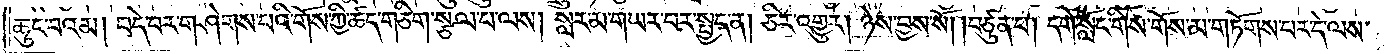ཆུང་བའམ། བདེ་བར་གཤེགས་པའི་གོས་ཀྱི་ཚད་གཅིག་སྩལ་པ་ལས། སླར་མ་གཡར་བར་སྤྱད་ན། ཅིར་འགྱུར། ཉེས་བྱས་སོ། །བཙུན་པ། དགེ་སློང་གིས་གོས་མ་གཏོགས་པར་དེ་ལས་
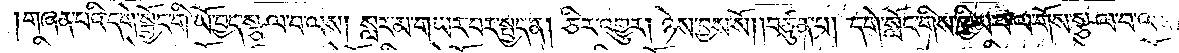།གཞན་པའི་དགེ་སྦྱོང་གི་ཡོ་བྱད་སྩལ་བ་ལས། སླར་མ་གཡར་བར་སྤྱད་ན། ཅིར་འགྱུར། ཉེས་བྱས་སོ། །བཙུན་པ། དགེ་སློང་གིས་ཁྱིམ་པ་ལ་གོས་སྩལ་པ་ལས་
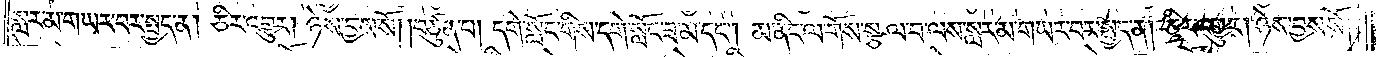སླར་མ་གཡར་བར་སྤྱད་ན། ཅིར་འགྱུར། ཉེས་བྱས་སོ། །བཙུན་པ། དགེ་སློང་གིས་དགེ་སློང་ཟ་མ་དང༌། མ་ནིང་ལ་གོས་སྩལ་པ་ལས་སླར་མ་གཡར་བར་སྤྱད་ན། ཅིར་འགྱུར། ཉེས་བྱས་སོ། །
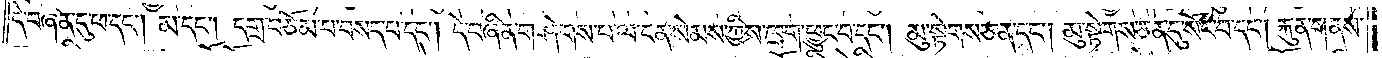དེ་བཞིན་དུ་ཕ་དང༌། མ་དང༌། དགྲ་བཅོམ་པ་བསད་པ་དང༌། དེ་བཞིན་གཤེགས་པ་ལ་ངན་སེམས་ཀྱིས་ཁྲག་ཕྱུང་བ་དང༌། མུ་སྟེགས་ཅན་དང༌། མུ་སྟེགས་ཅན་དུ་སོང་བ་དང༌། རྐུན་གནས་
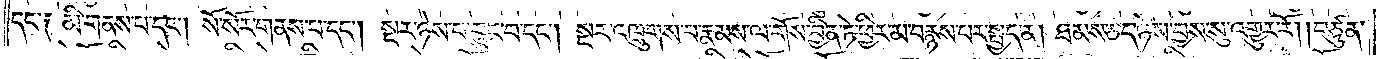དང་༑ མི་གནས་པ་དང༌། སོ་སོར་གནས་པ་དང༌། སྔར་ཉེས་པ་བྱུང་བ་དང༌། སྔར་འཁྲུགས་པ་རྣམས་ལ་གོས་བྱིན་ཏེ་ཕྱིར་མ་བརྙས་པར་སྤྱད་ན། ཐམས་ཅད་ཉེས་བྱས་སུ་འགྱུར་རོ། །བཙུན་
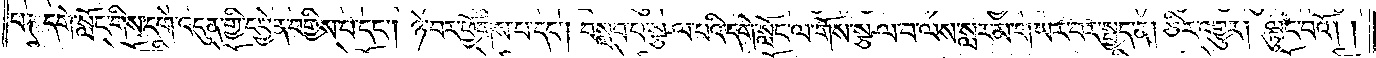པ༑ དགེ་སློང་གིས་དགེ་འདུན་གྱི་དབྱེན་བགྱིས་པ་དང༌། ཉེ་བར་ཕྱོགས་པ་དང༌། བསླབ་པ་སྩལ་པའི་དགེ་སློང་ལ་གོས་སྩལ་བ་ལས་སླར་མ་གཡར་བར་སྤྱད་ན། ཅིར་འགྱུར། ལྟུང་བའོ། །
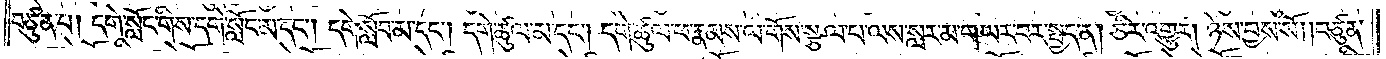བཙུན་པ། དགེ་སློང་གིས་དགེ་སློང་མ་དང༌། དགེ་སློབ་མ་དང༌། དགེ་ཚུལ་མ་དང༌། དགེ་ཚུལ་ཕ་རྣམས་ལ་གོས་སྩལ་པ་ལས་སླར་མ་གཡར་བར་སྤྱད་ན། ཅིར་འགྱུར། ཉེས་བྱས་སོ། །བཙུན་
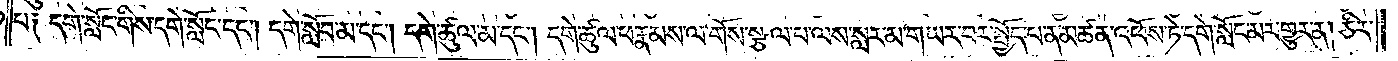པ༑ དགེ་སློང་གིས་དགེ་སློང་དང༌། དགེ་སློབ་མ་དང༌། དགེ་ཚུལ་མ་དང༌། དགེ་ཚུལ་ཕ་རྣམས་ལ་གོས་སྩལ་པ་ལས་སླར་མ་གཡར་བར་སྤྱོད་པ་ན་མཚན་འཕོས་ཏེ་དགེ་སློང་མར་གྱུར་ན། ཅིར་
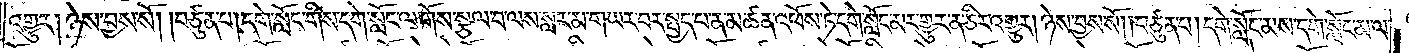འགྱུར། ཉེས་བྱས་སོ། །བཙུན་པ། དགེ་སློང་གིས་དགེ་སློང་ལ་གོས་སྩལ་པ་ལས་སླར་མ་གཡར་བར་སྤྱད་པ་ན་མཚན་འཕོས་ཏེ་དགེ་སློང་མར་གྱུར་ན་ཅིར་འགྱུར། ཉེས་བྱས་སོ། །བཙུན་པ། དགེ་སློང་མས་དགེ་སློང་མ་ལ་
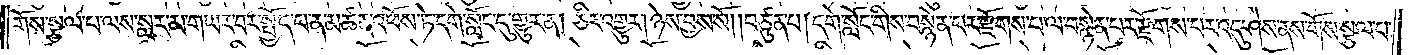གོས་སྩལ་པ་ལས་སླར་མ་གཡར་བར་སྤྱོད་པ་ན་མཚན་འཕོས་ཏེ་དགེ་སློང་དུ་གྱུར་ན། ཅིར་འགྱུར། ཉེས་བྱས་སོ། །བཙུན་པ། དགེ་སློང་གིས་བསྙེན་པར་རྫོགས་པ་ལ་བསྙེན་པར་རྫོགས་པར་འདུ་ཤེས་ནས་གོས་སྩལ་པ་
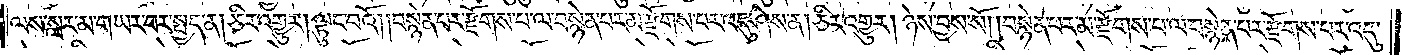ལས་སླར་མ་གཡར་བར་སྤྱད་ན། ཅིར་འགྱུར། ལྟུང་བའོ། །བསྙེན་པར་རྫོགས་པ་ལ་བསྙེན་པར་མ་རྫོགས་པར་འདུ་ཤེས་ན། ཅིར་འགྱུར། ཉེས་བྱས་སོ། །བསྙེན་པར་མ་རྫོགས་པ་ལ་བསྙེན་པར་རྫོགས་པར་འདུ་
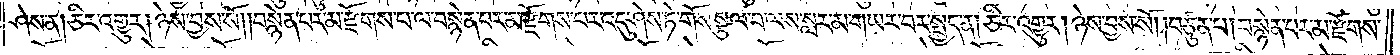ཤེས་ན། ཅིར་འགྱུར། ཉེས་བྱས་སོ། །བསྙེན་པར་མ་རྫོགས་པ་ལ་བསྙེན་པར་མ་རྫོགས་པར་འདུ་ཤེས་ཏེ་གོས་སྩལ་བ་ལས་སླར་མ་གཡར་བར་སྤྱད་ན། ཅིར་འགྱུར། ཉེས་བྱས་སོ། །བཙུན་པ། བསྙེན་པར་མ་རྫོགས་
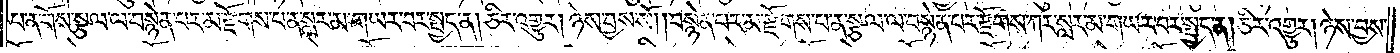པ་ན་གོས་སྩལ་ལ་བསྙེན་པར་མ་རྫོགས་པ་ན་སླར་མ་གཡར་བར་སྤྱད་ན། ཅིར་འགྱུར། ཉེས་བྱས་སོ། །བསྙེན་པར་མ་རྫོགས་པ་ན་སྩལ་ལ་བསྙེན་པར་རྫོགས་ཀར་སླར་མ་གཡར་བར་སྤྱད་ན། ཅིར་འགྱུར། ཉེས་བྱས་
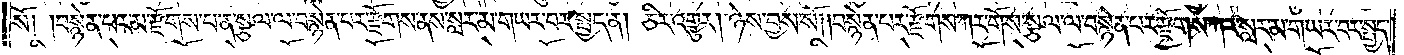སོ། །བསྙེན་པར་མ་རྫོགས་པ་ན་སྩལ་ལ་བསྙེན་པར་རྫོགས་ནས་སླར་མ་གཡར་བར་སྤྱད་ན། ཅིར་འགྱུར། ཉེས་བྱས་སོ། །བསྙེན་པར་རྫོགས་ཀར་གོས་སྩལ་ལ་བསྙེན་པར་རྫོགས་ཀར་སླར་མ་གཡར་བར་སྤྱད་
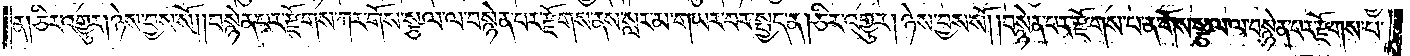ན། ཅིར་འགྱུར། ཉེས་བྱས་སོ། །བསྙེན་པར་རྫོགས་ཀར་གོས་སྩལ་ལ་བསྙེན་པར་རྫོགས་ནས་སླར་མ་གཡར་བར་སྤྱད་ན། ཅིར་འགྱུར། ཉེས་བྱས་སོ། །བསྙེན་པར་རྫོགས་པ་ན་གོས་སྩལ་ལ་བསྙེན་པར་རྫོགས་པ་
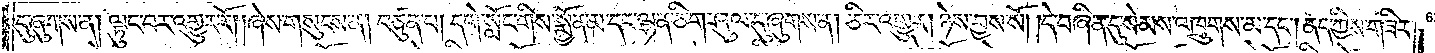དུ་ཞུགས་ན། ལྟུང་བར་འགྱུར་རོ། །ཞེས་གསུངས་ན། བཙུན་པ། དགེ་སློང་གིས་སྨྱོན་མ་དང་ལྷན་ཅིག་ཤུལ་དུ་ཞུགས་ན། ཅིར་འགྱུར། ཉེས་བྱས་སོ། །དེ་བཞིན་དུ་སེམས་འཁྲུགས་མ་དང༌། ནད་ཀྱིས་གཟིར་
